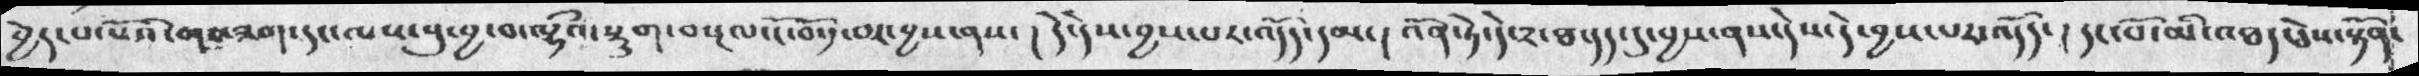བྱེད་པ་པོའི་གང་ཟག་དང་ལས་སུ་བྱ་བ་ལྷའི་སྡུག་བསྔལ་ངོ་བོ་༡་བར་བྱས་ནས་། དེ་དེས་་བྱས་པར་འདོད་དམ་།  འོན་ཏེ་དེ་༢་ཐ་དད་དུ་བྱས་ནས་དེས་དེ་བྱས་པར་འདོད་།  དང་པོ་མི་འཐད་ཅེས་སྟོན་
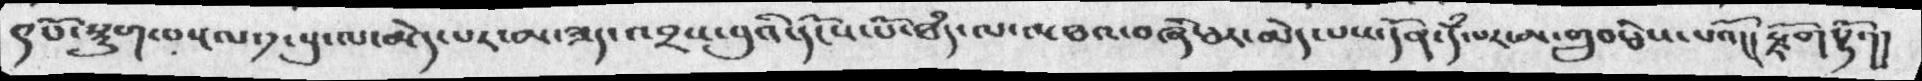༩པོ་སྡུག་བསྔལ་༡་སུ་ལ་མེད་པར་མ་ཟད་འབྲས་བུའི་དངོས་པོ་ཐཾད་ལས་མཐའ་བཞི་ཅར་མེད་པས་དོན་དཾ་པར་མ་གྲུབ་ཅེས་པའོ།།  རྫོགསྷོ་།།
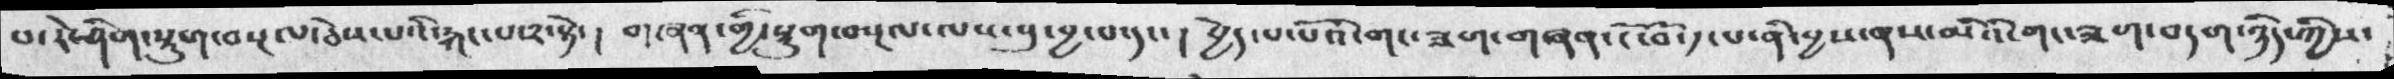པ་རེ་ཤིག་སྡུག་བསྔལ་ཅེས་པའི་རྐང་པ་༢་སྟེ་ །  གཞན་གྱི་སྡུག་བསྔལ་ལས་སུ་བྱ་བ་དང་།  བྱེད་པ་པོའི་གང་ཟག་གཞན་ངོ་བོ་༡་པ་ནི་བྱས་ནས་མིའི་གང་ཟག་བདག་ཉིད་ཀྱིས་
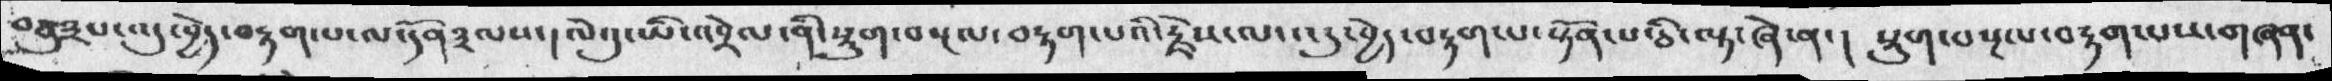བཅུ༣པ་འདུ་བྱེད་བརྟག་པ་ལ་དོན༣ལས་། ལེའུ་ཡི་འབྲེལ་ནི་སྡུག་བསྔལ་བརྟག་པའི་རྗེས་ལ་འདུ་བྱེད་བརྟག་པ་སྟོན་པ་ཅི་ལྟ་ཞེ་ན་།  སྡུག་བསྔལ་བརྟག་པས་གཞན་
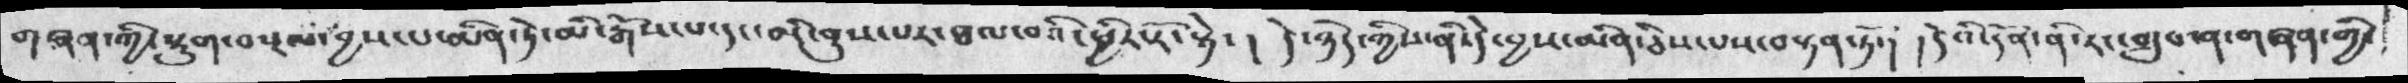གཞན་གྱི་སྡུག་བསྔལ་བྱས་པ་མིན་ཏེ་མི་རྒོས་པ་དང་མི་ནུས་པར་ཐལ་བའི་ཕྱིར་རོ་སྟེ་།  དེ་ཉིད་ཀྱིས་ནི་དེ་བྱས་མིན་ཅེས་པས་བསྟན་ཏོ་།  །དེའི་དོན་ནི་རང་གྲུབ་ན་གཞན་གྱི་
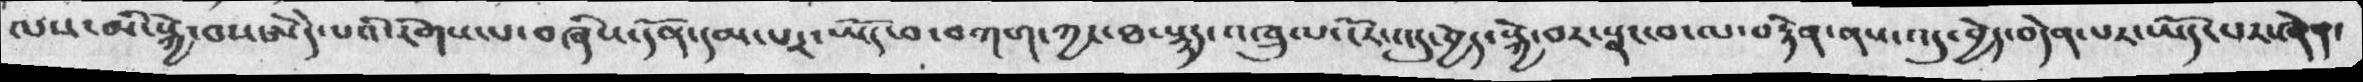ལས་མི་སྐྱེ་བས་ཨེདེ་པའི་རིགས་པ་བཞིས་དོན་དམ་པར་ཡོད་བ་བཀག་ཀྱང་ཐ་སྙད་འཁྲུལ་ངོར་འདུ་བྱེད་སྐྱེ་བར་སྣང་བ་ལ་བརྟེན་ནས་འདུ་བྱེད་བདེན་པར་ཡོད་པར་ཞེན་
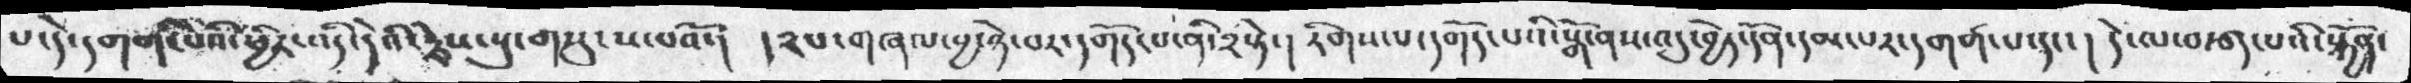པ་དེ་དགག་པའི་ཕྱིར་འདི་དེའི་རྗེས་སུ་གསུངས་པའོ་།  །༢པ་གཞལ་བྱ་ཉེ་བར་དགོད་པ་ནི་༢སྟེ་།  རིགས་པ་དགོད་པའི་སྒོ་ནས་འདུ་བྱེད་དོན་དམ་པར་དགག་པ་དང་།  དེ་ལ་བདག་པའི་སྐྱོན་
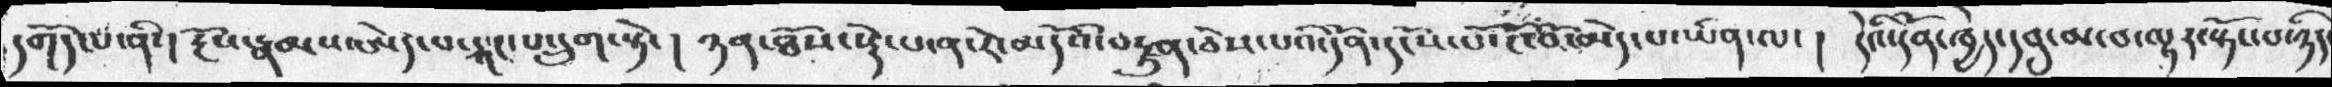དགོད་པ་ནི། རྔོས་རྣམས་ཨེད་པ་རྐང་པ་དྲུག་སྟེ་ ། ཉན་ཐོས་སྡེ་པ་ན་རེ་མདོའི་བརྫུན་ཅེས་པའི་དོན་དངོས་པོ་ངོ་བོ་མེད་པ་ཡིན་ལ་།  དེའི་དོན་ཁྱེད་དབུ་མ་བ་ལྟར་སྟོང་པ་ཉིད
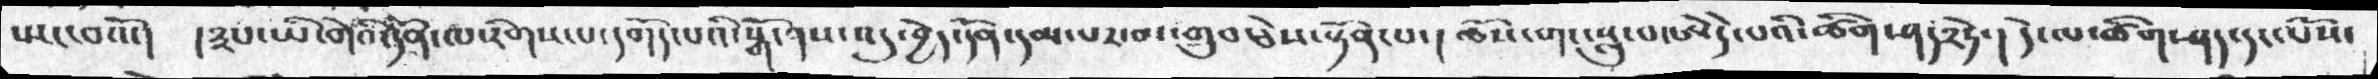སྤང་བའོ་།  །༣པ་ཡི་གེའི་དོནལ་རིགས་པ་དགོད་པའི་སྒོ་ནས་འདུ་བྱེད་དོན་དམ་པར་མ་གྲུབ་ཅེས་སྟོན་པ་།  ཆོས་གང་སླུ་བ་ཨེདེ་པའི་ཚིག་ཤད༢ཏེ་། དེ་ལ་ཚིག་ཤད་དང་པོས་
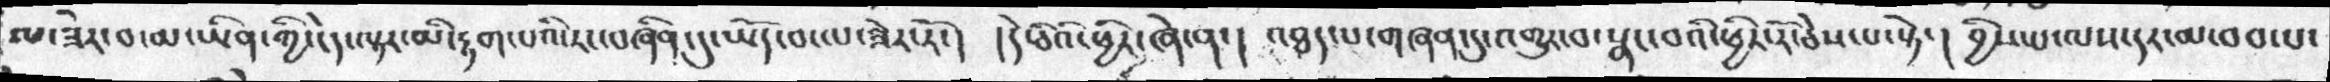ལ་ཟེར་བ་མ་ཡིན་ཀྱི་ངེད་ལྟར་མི་རྟག་པའི་རང་བཞིན་དུ་ཡོད་པ་ལ་ཟེར་རོ་།  །དེ་ཅིའི་ཕྱིར་ཞེ་ན་།  འཐད་པ་གཞན་དུ་འགྱུར་བ་སྣང་བའི་ཕྱིར་རོ་ཅེས་པ་སྟེ་།  བྱིས་པ་ལས་དར་མ་བབ་པ་
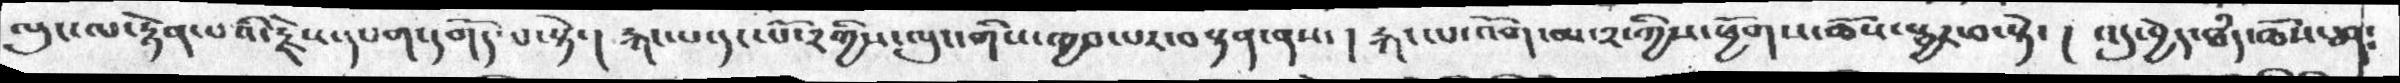ལུང་ལ་རྟེན་པའི་རྗེས་དཔག་དགོད་པ་སྟེ་།  རྐང་པ་དང་པོ་༢ཀྱིས་ལུང་གིས་ཁྱབ་པར་བསྟན་ནས་། རྐང་པ་འོག་མ་༢་ཀྱིས་ཕྱོགས་ཆོས་སྦྱར་བ་སྟེ་། འདུ་བྱེད་ཐཾད་ཆོས་ཅན༴
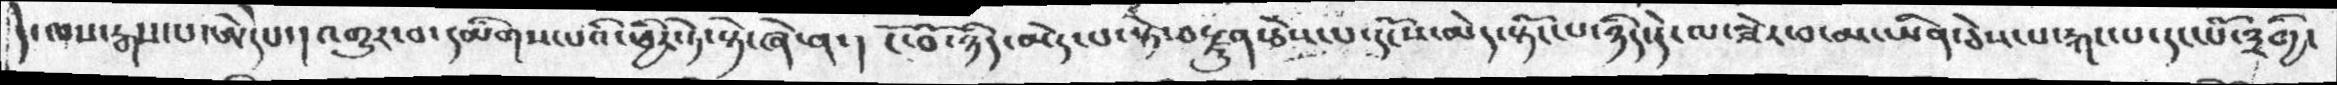དེ་ལས་རྒས་པ་ཨེདེཔ་། འགྱུར་བ་དམིགས་པའི་ཕྱིར་ཏེ་སྟེ་ཞེ་ན་།  ངོ་བོ་ཉིད་མེད་པ་སྟེ་བརྫུན་ཅེས་པ་དངོས་མེད་སྟོང་པ་ཉིད་དེ་ལ་ཟེར་བ་མ་ཡིན་ཅེས་པ་རྐང་པ་དང་པོ་༣གྱི་
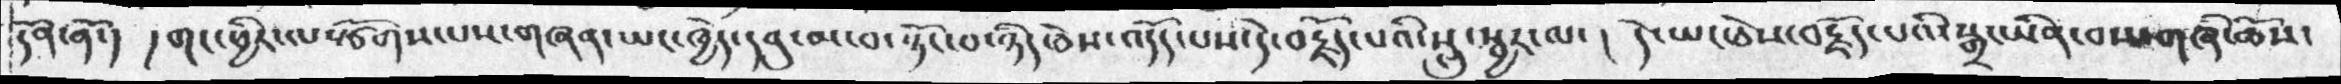དོན་ནོ་།  ། གང་ཕྱིར་ལསྩོགས་པས་གཞན་ཡང་ཁྱེད་དབུ་མ་བ་སྟོང་བ་ཉིད་ཅེས་འདོད་པས་དེ་བརྗོད་པའི་སླུ་སྦྱར་ལ་།  དེ་ཡང་ཅེས་བརྗོད་པའི་སྒྲ་ཡིན་བས་གཞི་ཆོས་
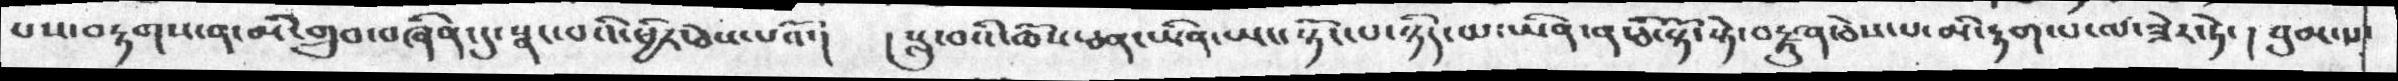པས་བརྟགས་ན་མི་གྲུབ་བཞིན་དུ་སྣང་པའི་ཕྱིར་ཅེས་པའོ་།   ། སླུ་བའི་ཆོས་ཅན་ཡིན་ཡང་སྟོང་པ་ཉིད་མ་ཡིན་ན་ཅི་སྟོ་སྟེ་བརྫུན་ཅེས་པ་མི་རྟག་པ་ལ་ཟེར་ཏེ་ ། བུམ་པ་
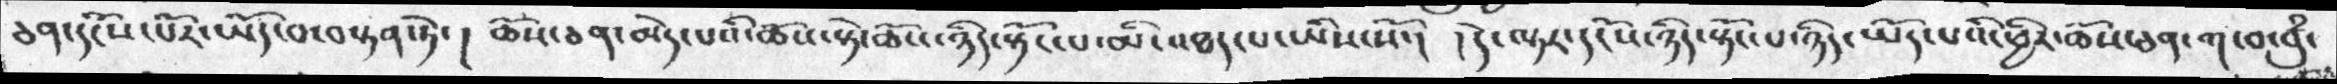ཅན་དངོས་པོར་ཡོད་བ་བསྟན་ཏེ་།  ཆོས་ཅན་མེད་པའི་ཆོས་སྟེ་ཆོས་ཉིད་སྟོང་པ་མི་འཐད་པ་ཡིས་སོ་།  ། དེ་ལྟར་དངོས་ཉིད་སྟོང་པ་ཉིད་ཡོད་པའི་ཕྱིར་ཆོས་ཅན་ཀ་བ་བུཾ་
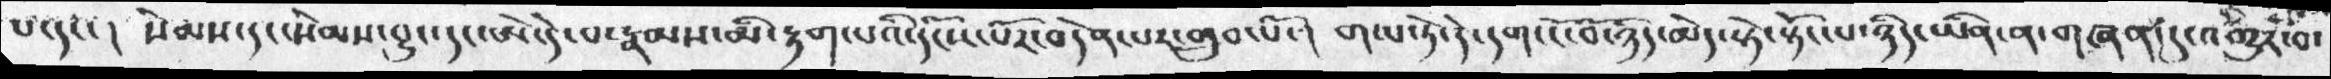པ་དང་།  སེམས་དང་སེམས་བྱུང་དང་ཨེ་དེ་པ་རྣམས་མི་རྟག་པའི་དངོས་པོར་བདེན་པར་གྲུབ་པོ་།  གལ་ཏེ་དེ་དག་ངོ་བོ་ཉིད་མེད་སྟེ་སྟོང་པ་ཉིད་ཡིན་ན་གཞན་དུ་འགྱུར་བ་
